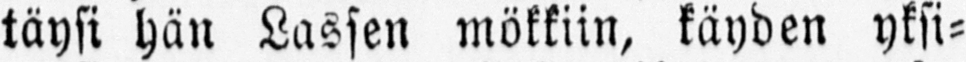täysi hän Lassen mökkiin, käyden yksi-
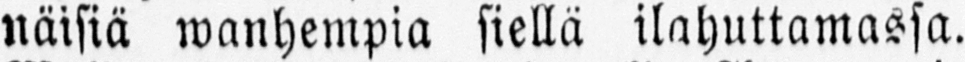näisiä wanhempia siellä ilahuttamassa.
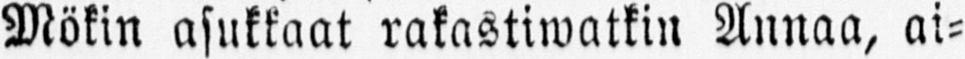Mökin asukkaat rakastiwatkin Annaa, ai-
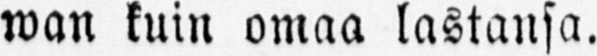wan kuin omaa lastansa.
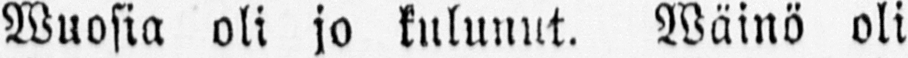Wuosia oli jo kulunut. Wäinö oli
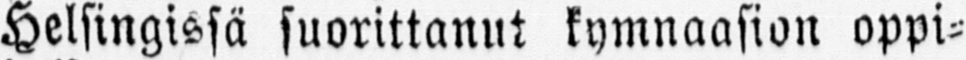Helsingissä suorittanut kymnaasion oppi-
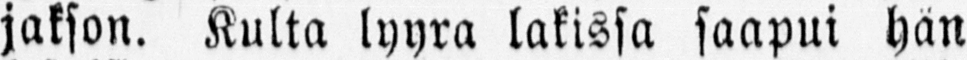jakson. Kulta lyyra lakissa saapui hän
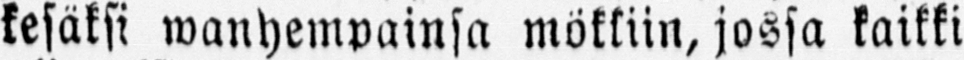kesäksi wanhempainsa mökkiin, jossa kaikki
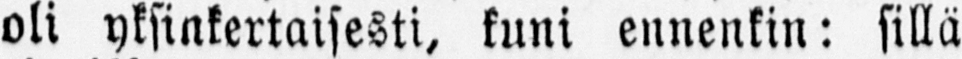oli yksinkertaisesti, kuni ennenkin: sillä
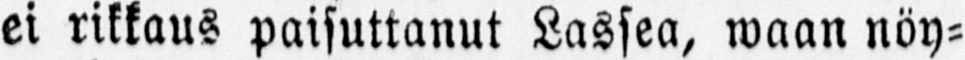ei rikkaus paisuttanut Lassea, waan nöy-
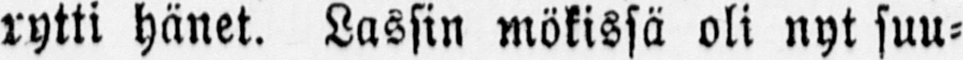rytti hänet. Lassin mökissä oli nyt suu-
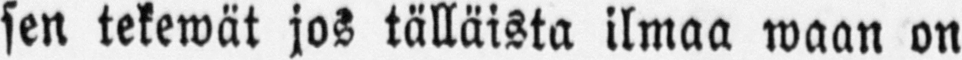sen tekewät jos tällaista ilmaa waan on
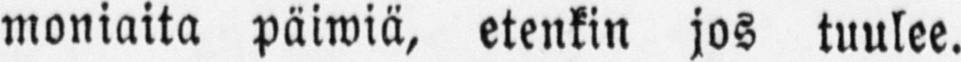moniaita päiwiä, etenkin jos tuulee.
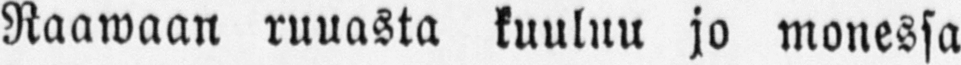Raawaan ruuasta kuuluu jo monessa
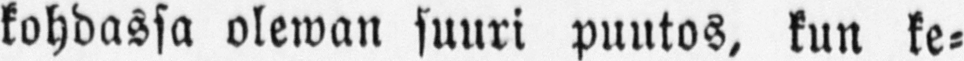kohdassa olewan suuri puutos, kun ke-
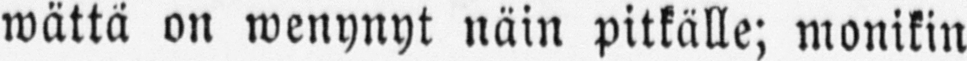wättä on wenynyt näin pitkälle; monikin
